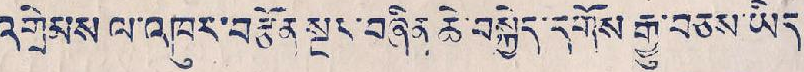འགྲེམས ལ་འཁུར་བརྩོན་སྔར་བཞིན་ཆེ་བསྐྱེད་དགོས རྒྱུ་བཅས་ཡིད་
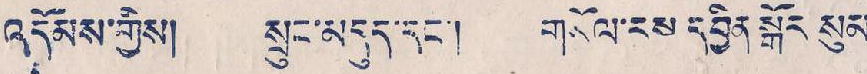འདོམས་གྱིས། སྲུང་མདུད་དང་། གསོལ་རས་དབྱིན་སྒོར སུམ་
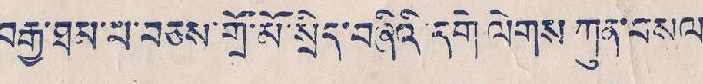བརྒྱ་ཐམ་པ་བཅས་གྲོ་མོ་སྲིད་བཞིའི་དགེ་ལེགས ཀུན་བསལ་
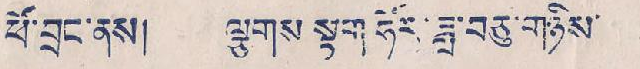ཕོ་བྲང་ནས། ལྕགས སྟག ཧོར་ཟླ་བཅུ་གཉིས་
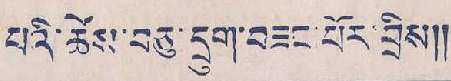པའི་ཚེས་བཅུ་དྲུག་བཟང་པོར་བྲིས།།
